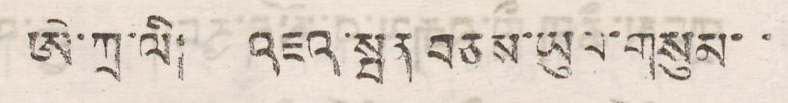ཨེ་ཀྲ་ལི། འཇའ་སྤན བཅས་ཡུལ་གསུམ་་
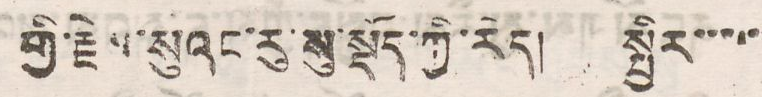གྱི་རྗེས་སུའང་རུ་སུ་སྡོད་ཀྱི་རེད། སྤྱིར་་་་་
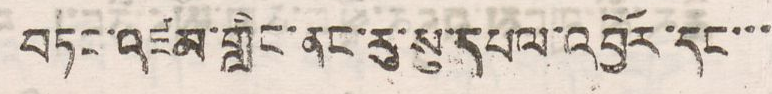བཏང་འཛམ་གླིང་ནང་རུ་སུ་དཔལ་འབྱོར་དང་་་
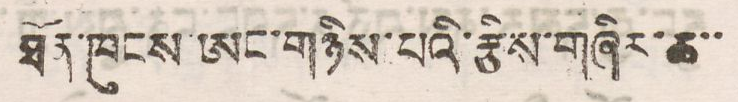ཐོན་ཁུངས་ཨང་གཉིས་པའི་རྩིས་གཞིར་ཆ་་
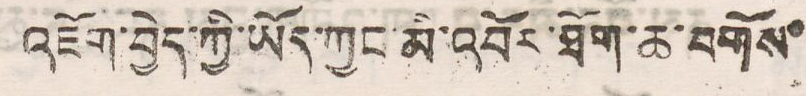འཇོག་བྱེད་ཀྱི་ཡོད་ཀྱང་མི་འབོར་ཐོག་ཆ་བགོས་
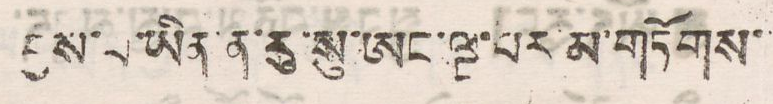བྱས་པ་ཡིན་ན་རུ་སུ་ཨང་ལྔ་པར་མ་གཏོགས་
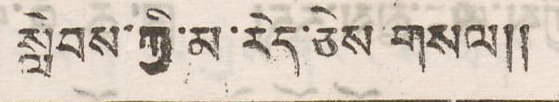སླེབས་ཀྱི་མ་རེད་ཅེས གསལ།།
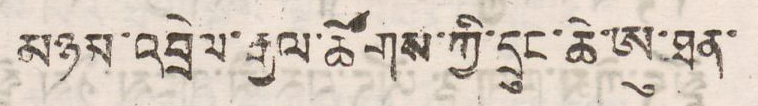མཉམ་འབྲེལ་རྒྱལ་ཚོགས་ཀྱི་དྲུང་ཆེ་ཨུ་ཐན་
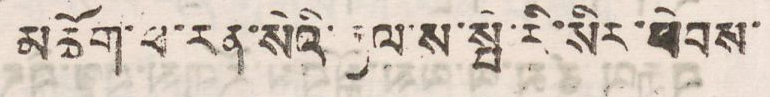མཆོག་ཕ་རན་སེའི་རྒྱལ་ས་སྤ་རི་སིར་ཕེབས་
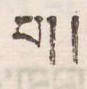པ། །
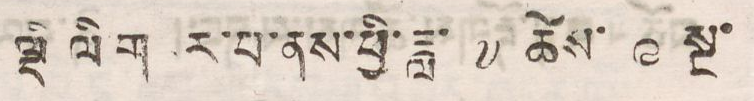ལྡི ལི གསར་པ་ནས་ཕྱི་ཟླ་ ༧ ཚེས་ ༩ སྔ་
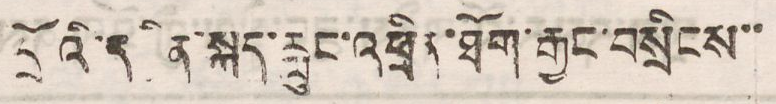དྲོའི་དབྱིན་སྐད་རླུང་འཕྲིན་ཐོག་རྒྱང་བསྲིངས་་
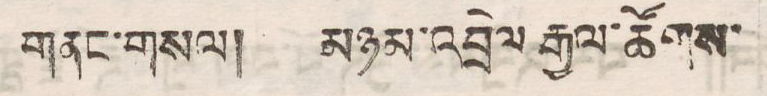གནང་གསལ། མཉམ་འབྲེལ རྒྱལ་ཚོགས་
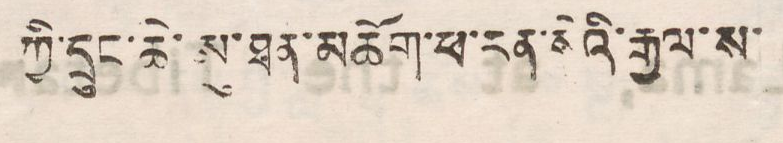ཀྱི་དྲུང་ཆེ་ཨུ་ཐན་མཆོག་ཕ་རན་སེའི་རྒྱལ་ས་
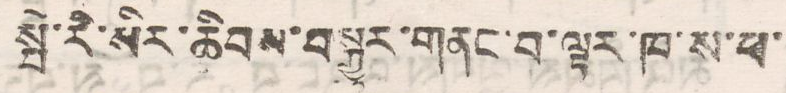སྦེ་རི་སིར་ཆིབས་བསྒྱུར་གནང་བ་ལྟར་ཁ་ས་ཕ་
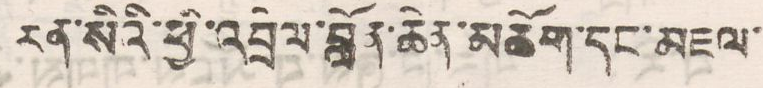རན་སིའི་ཕྱི་འབྲེལ་བློན་ཆེན་མཆོག་དང་མཇལ་
